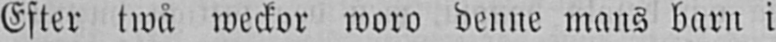Efter twå weckor woro denne mans barn i
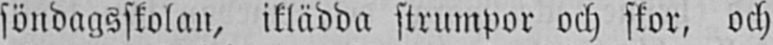söndagsskolan, iklädda strumpor och skor, och
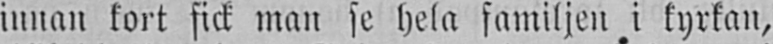innan kort fick man se hela familjen i kyrkan,
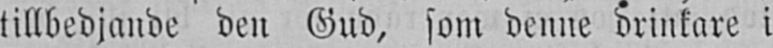tillbedjande den Gud, som denne drinkare i
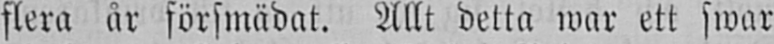flera år försmädat. Allt detta war ett swar
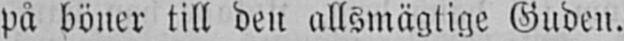på böner till den allsmägtige Guden.
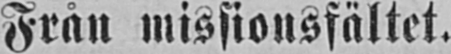Från missionsfältet.
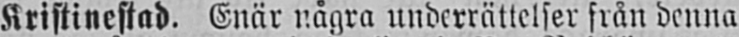Kristinestad. Enär några underrättelser från denna
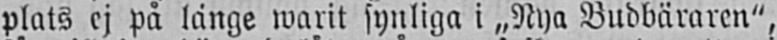plats ej på länge warit synliga i „Nya Budbäraren",
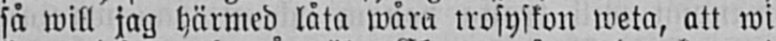så will jag härmed låta wåra trosyskon weta, att wi
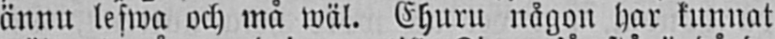ännu lefwa och må wäl. Ehuru någon har kunnat
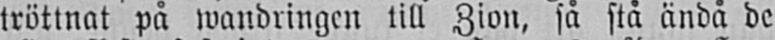tröttnat på wandringen till Zion, så stå ändå de
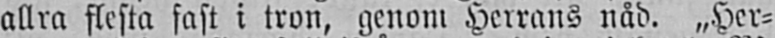allra flesta fast i tron, genom Herrans nåd. »Her-
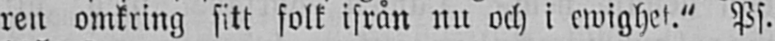ren omkring sitt folk ifrån nu och i ewighet." Ps.
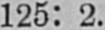125: 2.
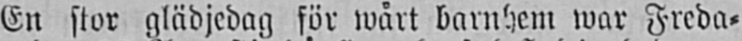En stor glädjedag för wårt barnhem war Freda-
